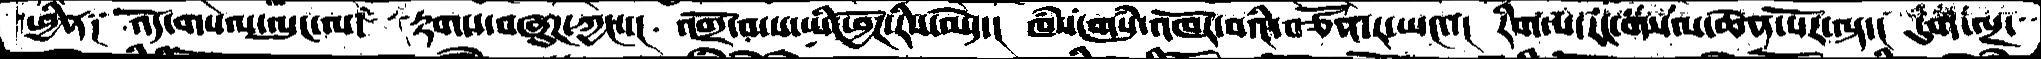ཕྱིན༑  འོད་གསལ་ལུང་ལ་  རྟགས་བཞུཌ་ཀྱང་་།  འགྲོ་བ་པ་ཡི་ཕྱོཌ་རིས་མེད་།  ཁཾས་གསུཾ་འཁོར་བའི་བཙོན་ར་ཡང་་།  རིག་པ་རང་གསལ་ཆེན་པོར་ལྟ་།  དུག་ལྔ་
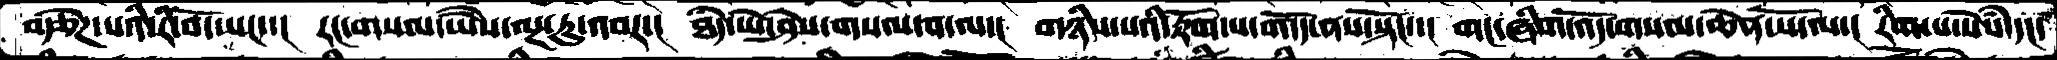བརྩེཌ་པའི་རི་བོ་ཡང་་།   རང་གསལ་ཡཻས་ལྔ་རུ་འབར་།  ཐཾད་ཡེ་ཤེས་གསལ་བ་ལ་།  གཉིས་པའི་རྟོག་པ་གདོད་ནས་སྟོང་་།  གང་ཞིག་འོད་གསལ་ཆེན་པོ་ལ་།  རིག་པ་སེཾས་དང་
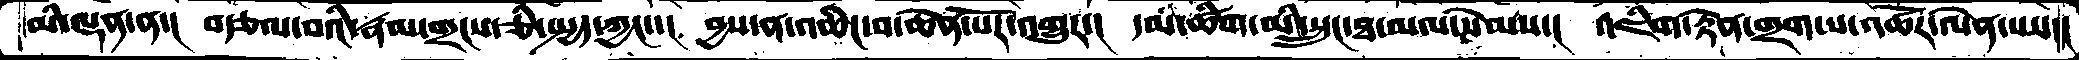མི་ལྡན་ན་།  བརྩལ་བའི་རྣམ་གྲངས་ཅི་སྤྱད་ཀྱང་་།  བྱས་ན་འཆིང་བ་ཆེན་པོར་འགྱུར་།  དམ་ཚིག་མི་སྲུང་ཐ་མལ་སེམས་།  འཇིག་རྟེན་གྲག་པ་འཚོར་ལེན་པས་།
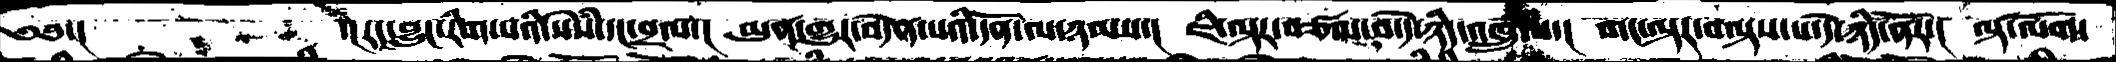༄༅་།        ་།རང་བྱུང་རིག་པའི་སེཾས་དང་བྲལ་།  མུན་གྱུར་བདེན་པའི་དོན་ལ་ཉམས་།  ཇི་ལྟར་བཙལ་བ་དེ་ཉིད་འཁྲུལ་།  གང་ལྟར་བལྟས་པ་དེ་ཉིད་ནོར་།  ལྟ་ལོག་
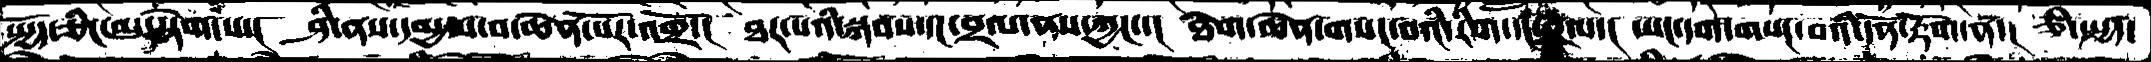སྤྱོད་ཅིང་མུ་སྟེག་པ་།  ཤི་ནས་དམྱལ་བ་ཆེན་པོར་འགྲོ་།  ཐར་བའི་སྐབས་དང་བྲལ་ནས་ཀྱང་་།  ཐེག་ཆེན་གསང་བའི་རིག་དང་བྲལ་།  ཡང་དག་གསང་བའི་དོན་རྟོག་ན་།  ཅི་སྤྱད་
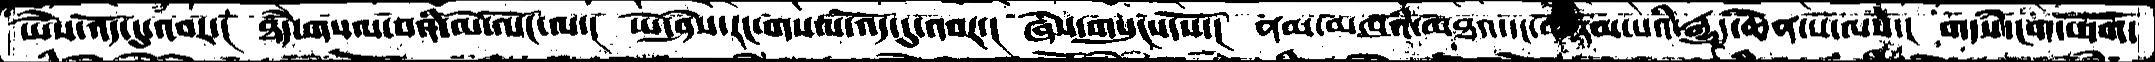ཡཻས་འོད་དུ་འབར་།  ཐཾད་གསལ་བའི་མེ་ལོང་ལ་།  ཡེ་ཤེས་རང་གསལ་འོད་དུ་འབར་།  ཞེས་གསུངས་སོ་།  ནམ་མཁའི་མཐའ་དང་མཉམ་པའི་རྒྱུད་ཆེན་པོ་ལས་།  གདཾས་ངག་བདག་
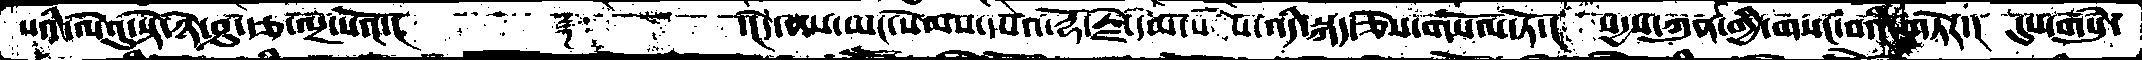པའི་ལེའུ་སྟེ་ཉེ་ཤུ་རྩ་ལྔ་པའོ་།     ࿑      ་།དེ་ནས་ཡང་སེམས་དཔའ་རྡོ་རྗེ་དམ་པས་འདི་སྐད་ཅེས་གསོལ་ཏོ་།  སདྱས་ཀུན་གྱི་གསང་བའི་གཏེར་།  དུས་གསུཾ་
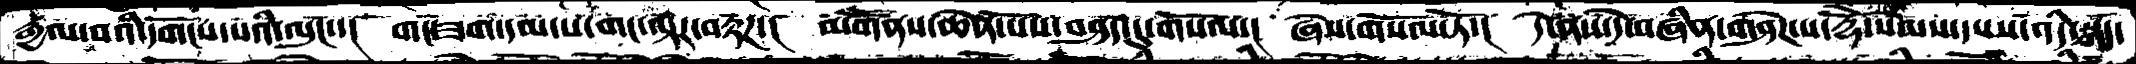རྒྱལ་བའི་དགོངས་པའི་ལུང་་།  གང་ཟག་དམ་པ་གང་ལྟར་བརྟཌ་།  མགཽནས་ཆེན་པོས་བཤད་དུ་གསོལ་།  ཞེས་གསོལ་ཏོ་།  དེ་ནས་དེ་བཞིན་གཤེཌ་པ་རྡོེ་སེམས་དཔས་འདི་སྐད་
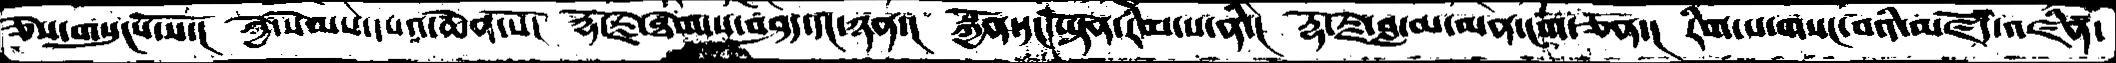ཅེས་གསུངས་སོ་།  ཀྱེ་སེམས་དཔའ་ཆེན་པོ།  རྡོ་རྗེ་ཐེག་པ་བཤད་དང་ཉན་།  སྐྱོན་དང་ཡྟོན་རིམ་པ་ནི་།  རྡོ་རྗེ་བླ་མ་མན་ངག་ཅན་།  རིག་པ་གསང་བའི་མཛོད་འཛིན་
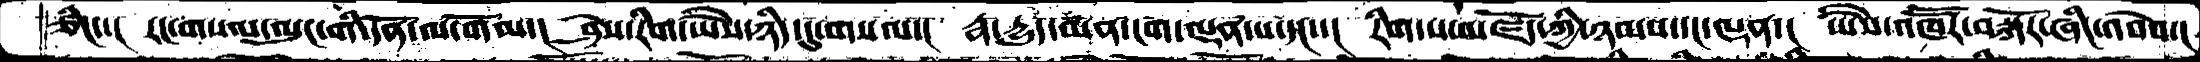ཅིང་་།  རང་གསལ་ལུང་གི་དོན་ལ་གོམ་།  ཤེས་རིག་ཡཻས་ཉིད་དུ་གསལ་།  རྣ་དྱུད་མན་ངག་ལྡན་པ་དང་་།  རིག་པ་མཛོད་ཀྱི་ཉམས་དང་ལྡན་།  ཡཻས་འཁཽར་བསྐོར་ཞིང་འབེབ་།
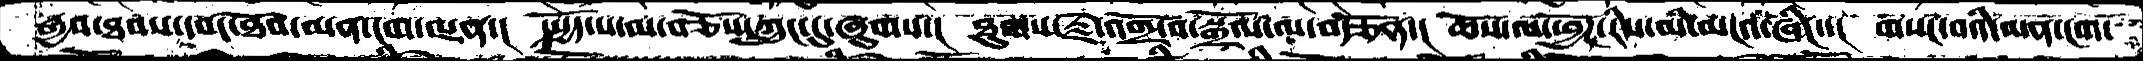རྒྱབ་ཐབས་དབང་ཐོབ་མན་ངག་ལྡན་།  སྤྱོད་པ་མ་བཅོས་ཀླུང་དུ་ཞུགས་།  ཐུགས་རྗེ་འགྲོ་བ་སྒྲོལ་ལ་བརྩོན་།  ཆོས་ལ་ཕྱོཌ་རིས་མི་མངའ་ཞིང་་།  གསང་བའི་མན་ངག་
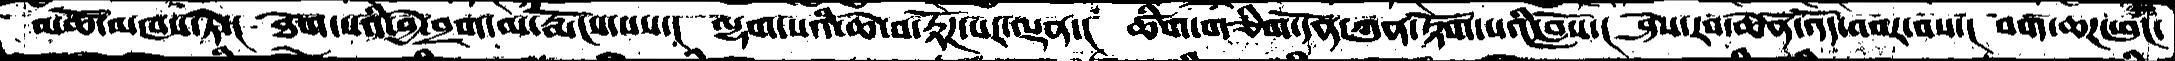མཚོ་མཁས་ཏེ་།  ཐེག་པའི་བྱེ་བྲག་མ་རྨོངས་པས་།  ལྷག་པའི་ཆེ་བ་རྟོཌ་པར་ལྡན་།  ཚིག་གཅིག་དོན་ཀུན་རྟོག་པའི་བློས་།  ཤེས་རབ་ཆེནོ་འོད་འབར་བས་།  བག་ཆཌ་ཕུང་
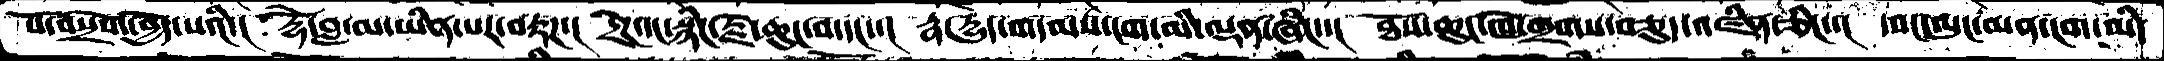པོ་བསྲེག་བྱེད་པའི་།  རྡོེ་བླ་མ་ཡིན་པར་བརྟཌ་།  དྲེཌ་དང་སྙིང་རྗེ་ཆུང་བ་དང་་།  རྣ་དྱུད་གདམས་ངག་མི་ལྡན་ཞིང་་།   ཐོས་ཆུང་ཁེ་གྲགས་བཅུད་འཛིན་ཅིང་་།  དབང་ལུང་མན་ངག་མི་
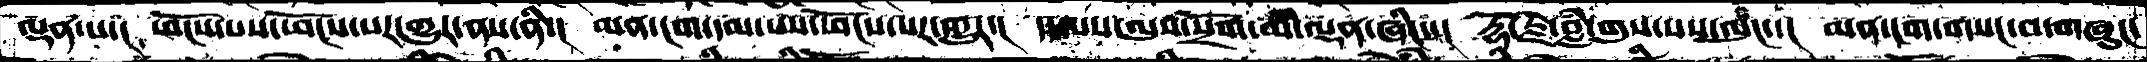ལྡན་པ་། ཕོངས་པས་ཕོངས་པར་གྱུར་ནས་ནི་། མན་ངག་དམ་པས་ཕོངས་པར་གྱུར་། དད་པས་ལུས་སྲོག་མི་ལྡན་ཞིང་་། རྡོ་རྗེ་བླཾ་གུས་པས་ལུང་་། མན་ངག་གསང་བ་གཞུང་
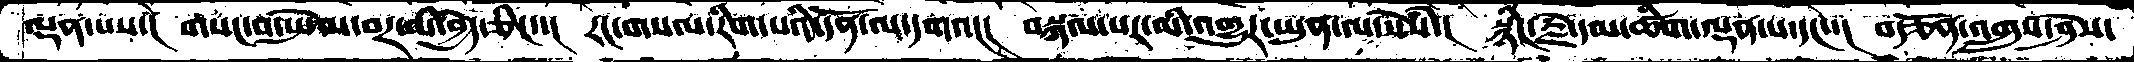ལྡན་པས་།  གསང་བ་སྤེལ་བར་མི་བྱེད་ཅིང་་།  རང་གསལ་རིག་པའི་དོན་ལ་དགའ།།།  བསྐལ་པར་མི་འགྱུར་ཡུན་ལ་སེཾས་།  སྙིང་རྗེ་དམ་ཚིག་ལྡན་པ་དང་་།  བརྩོན་འགྲུས་ཤེས་
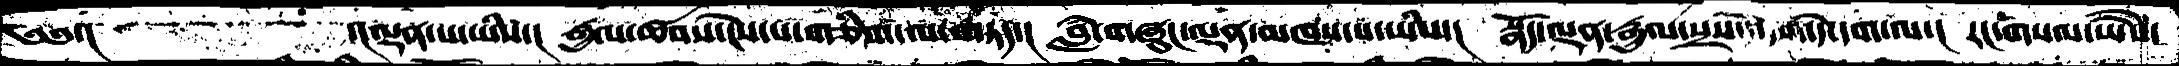༄༅་།         ་།ལྡན་པ་ཡིས་།  རྒྱལ་ཚབས་ངེས་པ་གཅིག་ལ་གཏད་།  བླཾ་གཞུང་ལྡན་མཁས་པ་ཡིས་།  སྣོད་ལྡན་རྒྱལ་སྲས་དེ་དག་ལ་།  རང་གསལ་ཡཻས་
